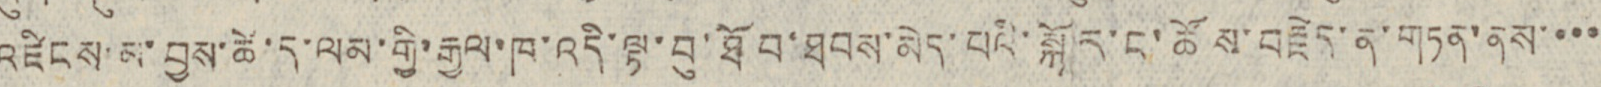འཛིངས་མ་བྱས་ཚེ་ད་ལམ་གྱི་རྒྱལ་ཁ་འདི་ལྟ་བུ་ཐོབ་ཐབས་མེད་པའི་སྐོར་ང་ཚོས་བརྗེད་ན་གཏན་ནས་་་་
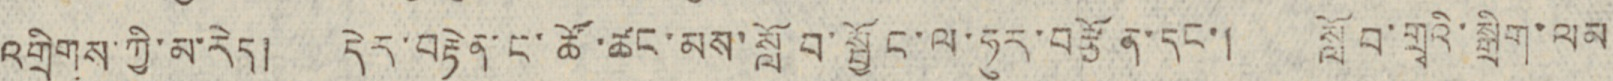འགྲིགས་ཀྱི་མ་རེད། དེར་བརྟེན་ང་ཚོ་ཚང་མས་སློབ་སྦྱོང་ལ་ཧུར་བརྩོན་དང་། སློབ་གྲྭའི་སྒྲིག་ལམ
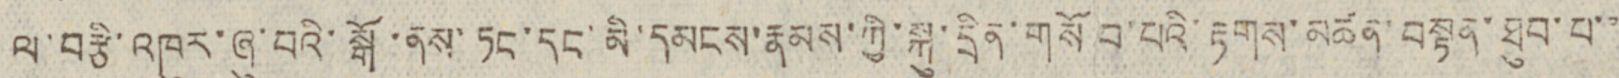ལ་བརྩི་འཁུར་ཞུ་བའི་སྒོ་ནས་ཏང་དང་མི་དམངས་རྣམས་ཀྱི་སྐུ་དྲིན་གསོབ་པའི་རྟགས་མཚན་བསྟན་ཐུབ་པ་་
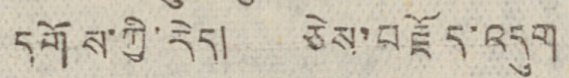དགོས་ཀྱི་རེད། ཅེས་བརྗོད་འདུག
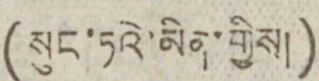(སུང་ཏའེ་མིན་གྱིས།)
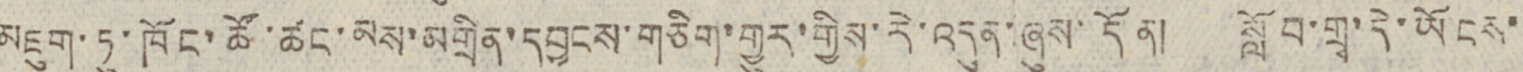མཇུག་ཏུ་ཁོང་ཚོ་ཚང་མས་མགྲིན་དབྱངས་གཅིག་གྱུར་གྱིས་རེ་འདུན་ཞུས་དོན། སློབ་གྲྭ་དེ་ཡོངས་
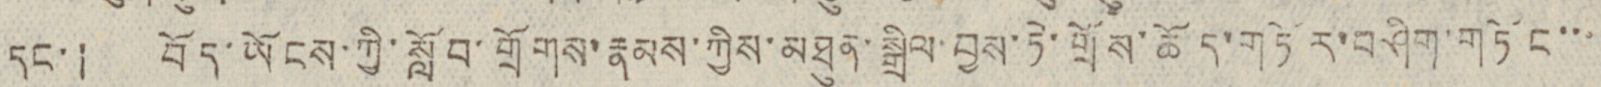དང་། བོད་ཡོངས་ཀྱི་སློབ་གྲོགས་རྣམས་ཀྱིས་མཐུན་སྒྲིལ་བྱས་ཏེ་གྲོས་ཆོད་གཏོར་བཤིག་གཏོང་་་་
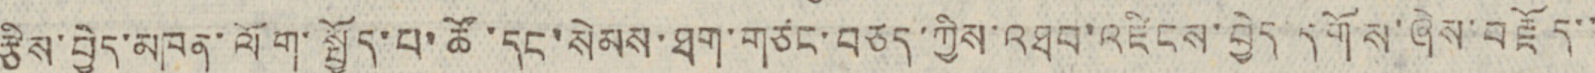རྩིས་བྱེད་མཁན་ལོག་སྤྱོད་པ་ཚོ་དང་སེམས་ཐག་གཙང་བཅད་ཀྱིས་འཐབ་འཛིངས་བྱེད་དགོས་ཞེས་བརྗོད་་
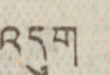འདུག
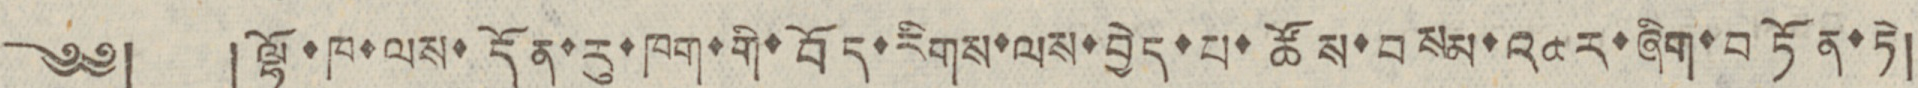༄༅། །ལྷོ་ཁ་ལས་དོན་རུ་ཁག་གི་བོད་རིགས་ལས་བྱེད་པ་ཚོས་བསམ་འཆར་ཞིག་བཏོན་ཏེ།
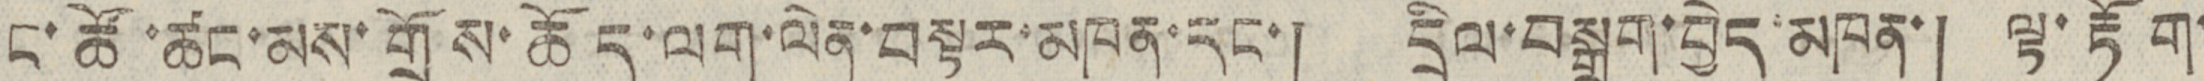ང་ཚོ་ཚང་མས་གྲོས་ཆོད་ལག་ལེན་བསྟར་མཁན་དང་། དྲིལ་བསྒྲག་བྱེད་མཁན་། ལྟ་རྟོག་
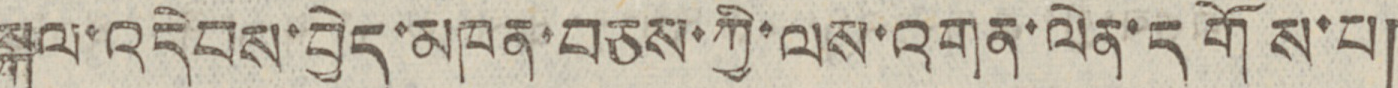སྐུལ་འདེབས་བྱེད་མཁན་བཅས་ཀྱི་ལས་འགན་ལེན་དགོས་པ།
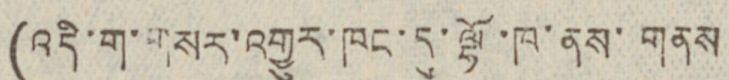(འདི་ག་གསར་འགྱུར་ཁང་དུ་ལྷོ་ཁ་ནས་གནས
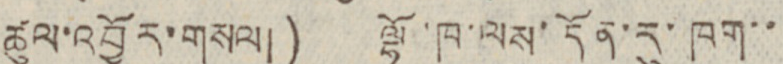ཚུལ་འབྱོར་གསལ།) ལྷོ་ཁ་ལས་དོན་རུ་ཁག་་
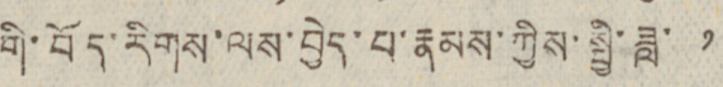གི་བོད་རིགས་ལས་བྱེད་པ་རྣམས་ཀྱིས་སྤྱི་ཟླ་ ༡
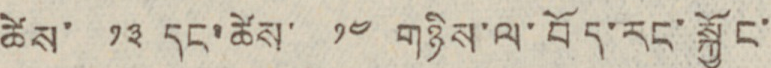ཚེས་ ༡༣ དང་ཚེས་ ༡༤ གཉིས་ལ་བོད་རང་སྐྱོང་
